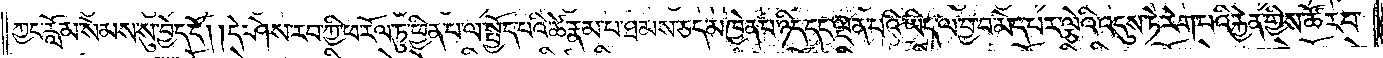ཀྱང་རློམ་སེམས་སུ་བྱེད་དོ། །དེ་ཤེས་རབ་ཀྱི་ཕ་རོལ་ཏུ་ཕྱིན་པ་ལ་སྤྱོད་པའི་ཚེ་རྣམ་པ་ཐམས་ཅད་མཁྱེན་པ་ཉིད་དང་ལྡན་པའི་ཡིད་ལ་བྱ་བ་མེད་པར་ལྕེའི་འདུས་ཏེ་རེག་པའི་རྐྱེན་གྱིས་ཚོར་བ་
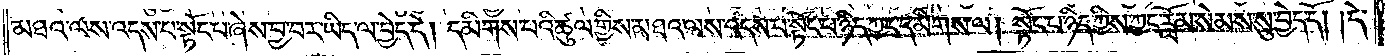མཐའ་ལས་འདས་པ་སྟོང་པ་ཞེས་བྱ་བར་ཡིད་ལ་བྱེད་དེ། དམིགས་པའི་ཚུལ་གྱིས་མཐའ་ལས་འདས་པ་སྟོང་པ་ཉིད་ཀྱང་དམིགས་ལ། སྟོང་པ་ཉིད་ཀྱིས་ཀྱང་རློམ་སེམས་སུ་བྱེད་དོ། །དེ་
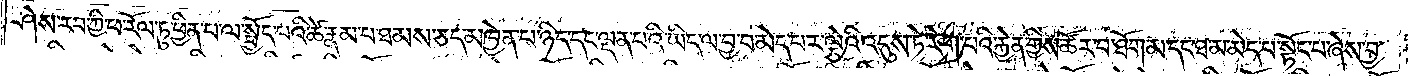ཤེས་རབ་ཀྱི་ཕ་རོལ་ཏུ་ཕྱིན་པ་ལ་སྤྱོད་པའི་ཚེ་རྣམ་པ་ཐམས་ཅད་མཁྱེན་པ་ཉིད་དང་ལྡན་པའི་ཡིད་ལ་བྱ་བ་མེད་པར་ལྕེའི་འདུས་ཏེ་རེག་པའི་རྐྱེན་གྱིས་ཚོར་བ་ཐོག་མ་དང་ཐ་མ་མེད་པ་སྟོང་པ་ཞེས་བྱ་
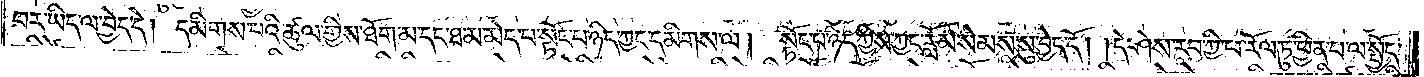བར་ཡིད་ལ་བྱེད་དེ། དམིགས་པའི་ཚུལ་གྱིས་ཐོག་མ་དང་ཐ་མ་མེད་པ་སྟོང་པ་ཉིད་ཀྱང་དམིགས་ལ། སྟོང་པ་ཉིད་ཀྱིས་ཀྱང་རློམ་སེམས་སུ་བྱེད་དོ། །དེ་ཤེས་རབ་ཀྱི་ཕ་རོལ་ཏུ་ཕྱིན་པ་ལ་སྤྱོད་
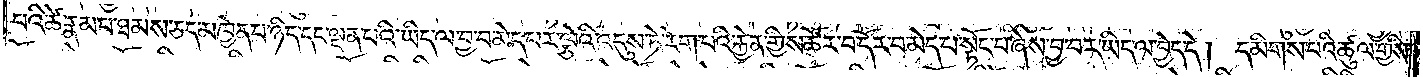པའི་ཚེ་རྣམ་པ་ཐམས་ཅད་མཁྱེན་པ་ཉིད་དང་ལྡན་པའི་ཡིད་ལ་བྱ་བ་མེད་པར་ལྕེའི་འདུས་ཏེ་རེག་པའི་རྐྱེན་གྱིས་ཚོར་བ་དོར་བ་མེད་པ་སྟོང་པ་ཞེས་བྱ་བར་ཡིད་ལ་བྱེད་དེ། དམིགས་པའི་ཚུལ་གྱིས་
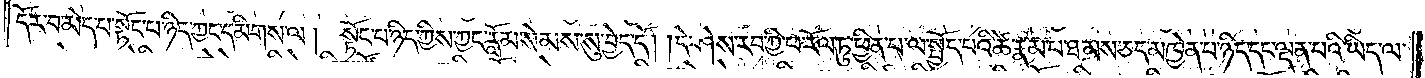དོར་བ་མེད་པ་སྟོང་པ་ཉིད་ཀྱང་དམིགས་ལ། སྟོང་པ་ཉིད་ཀྱིས་ཀྱང་རློམ་སེམས་སུ་བྱེད་དོ། །དེ་ཤེས་རབ་ཀྱི་ཕ་རོལ་ཏུ་ཕྱིན་པ་ལ་སྤྱོད་པའི་ཚེ་རྣམ་པ་ཐམས་ཅད་མཁྱེན་པ་ཉིད་དང་ལྡན་པའི་ཡིད་ལ་
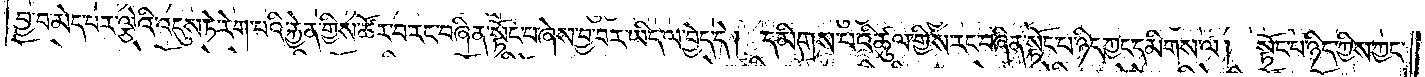བྱ་བ་མེད་པར་ལྕེའི་འདུས་ཏེ་རེག་པའི་རྐྱེན་གྱིས་ཚོར་བ་རང་བཞིན་སྟོང་པ་ཞེས་བྱ་བར་ཡིད་ལ་བྱེད་དེ། དམིགས་པའི་ཚུལ་གྱིས་རང་བཞིན་སྟོང་པ་ཉིད་ཀྱང་དམིགས་ལ། སྟོང་པ་ཉིད་ཀྱིས་ཀྱང་
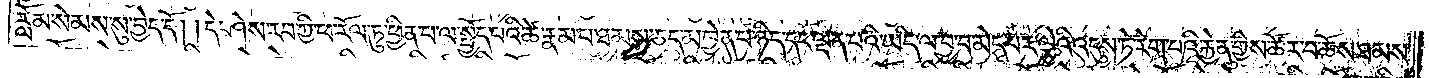རློམ་སེམས་སུ་བྱེད་དོ། །དེ་ཤེས་རབ་ཀྱི་ཕ་རོལ་ཏུ་ཕྱིན་པ་ལ་སྤྱོད་པའི་ཚེ་རྣམ་པ་ཐམས་ཅད་མཁྱེན་པ་ཉིད་དང་ལྡན་པའི་ཡིད་ལ་བྱ་བ་མེད་པར་ལྕེའི་འདུས་ཏེ་རེག་པའི་རྐྱེན་གྱིས་ཚོར་བ་ཆོས་ཐམས་
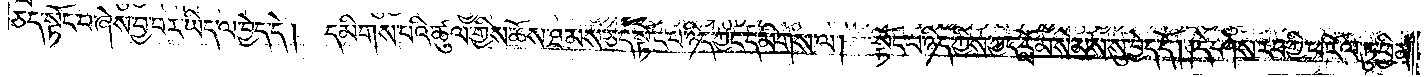ཅད་སྟོང་པ་ཞེས་བྱ་བར་ཡིད་ལ་བྱེད་དེ། དམིགས་པའི་ཚུལ་གྱིས་ཆོས་ཐམས་ཅད་སྟོང་པ་ཉིད་ཀྱང་དམིགས་ལ། སྟོང་པ་ཉིད་ཀྱིས་ཀྱང་རློམ་སེམས་སུ་བྱེད་དོ། །དེ་ཤེས་རབ་ཀྱི་ཕ་རོལ་ཏུ་ཕྱིན་
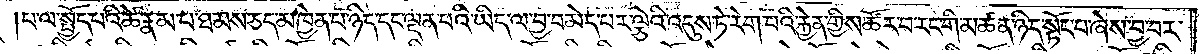པ་ལ་སྤྱོད་པའི་ཚེ་རྣམ་པ་ཐམས་ཅད་མཁྱེན་པ་ཉིད་དང་ལྡན་པའི་ཡིད་ལ་བྱ་བ་མེད་པར་ལྕེའི་འདུས་ཏེ་རེག་པའི་རྐྱེན་གྱིས་ཚོར་བ་རང་གི་མཚན་ཉིད་སྟོང་པ་ཞེས་བྱ་བར་
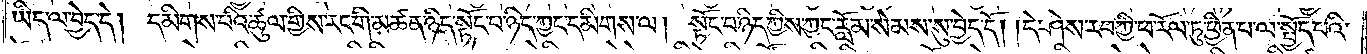ཡིད་ལ་བྱེད་དེ། དམིགས་པའི་ཚུལ་གྱིས་རང་གི་མཚན་ཉིད་སྟོང་པ་ཉིད་ཀྱང་དམིགས་ལ། སྟོང་པ་ཉིད་ཀྱིས་ཀྱང་རློམ་སེམས་སུ་བྱེད་དོ། །དེ་ཤེས་རབ་ཀྱི་ཕ་རོལ་ཏུ་ཕྱིན་པ་ལ་སྤྱོད་པའི་
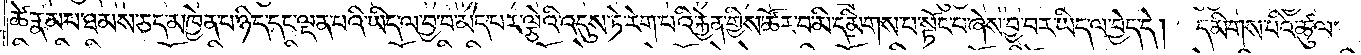ཚེ་རྣམ་པ་ཐམས་ཅད་མཁྱེན་པ་ཉིད་དང་ལྡན་པའི་ཡིད་ལ་བྱ་བ་མེད་པར་ལྕེའི་འདུས་ཏེ་རེག་པའི་རྐྱེན་གྱིས་ཚོར་བ་མི་དམིགས་པ་སྟོང་པ་ཞེས་བྱ་བར་ཡིད་ལ་བྱེད་དེ། དམིགས་པའི་ཚུལ་
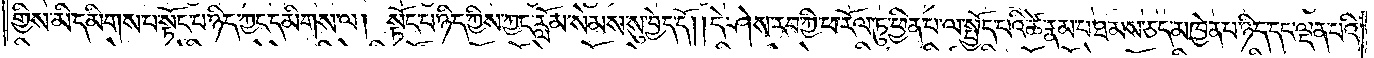གྱིས་མི་དམིགས་པ་སྟོང་པ་ཉིད་ཀྱང་དམིགས་ལ། སྟོང་པ་ཉིད་ཀྱིས་ཀྱང་རློམ་སེམས་སུ་བྱེད་དོ། །དེ་ཤེས་རབ་ཀྱི་ཕ་རོལ་ཏུ་ཕྱིན་པ་ལ་སྤྱོད་པའི་ཚེ་རྣམ་པ་ཐམས་ཅད་མཁྱེན་པ་ཉིད་དང་ལྡན་པའི་
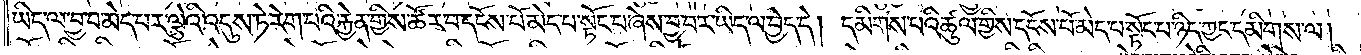ཡིད་ལ་བྱ་བ་མེད་པར་ལྕེའི་འདུས་ཏེ་རེག་པའི་རྐྱེན་གྱིས་ཚོར་བ་དངོས་པོ་མེད་པ་སྟོང་པ་ཞེས་བྱ་བར་ཡིད་ལ་བྱེད་དེ། དམིགས་པའི་ཚུལ་གྱིས་དངོས་པོ་མེད་པ་སྟོང་པ་ཉིད་ཀྱང་དམིགས་ལ།
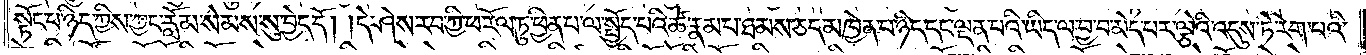སྟོང་པ་ཉིད་ཀྱིས་ཀྱང་རློམ་སེམས་སུ་བྱེད་དོ། །དེ་ཤེས་རབ་ཀྱི་ཕ་རོལ་ཏུ་ཕྱིན་པ་ལ་སྤྱོད་པའི་ཚེ་རྣམ་པ་ཐམས་ཅད་མཁྱེན་པ་ཉིད་དང་ལྡན་པའི་ཡིད་ལ་བྱ་བ་མེད་པར་ལྕེའི་འདུས་ཏེ་རེག་པའི་
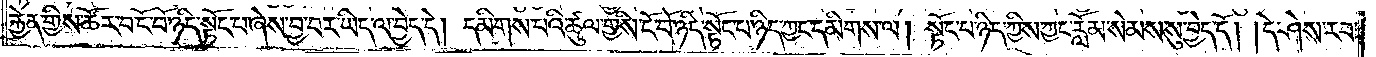རྐྱེན་གྱིས་ཚོར་བ་ངོ་བོ་ཉིད་སྟོང་པ་ཞེས་བྱ་བར་ཡིད་ལ་བྱེད་དེ། དམིགས་པའི་ཚུལ་གྱིས་ངོ་བོ་ཉིད་སྟོང་པ་ཉིད་ཀྱང་དམིགས་ལ། སྟོང་པ་ཉིད་ཀྱིས་ཀྱང་རློམ་སེམས་སུ་བྱེད་དོ། །དེ་ཤེས་རབ་
